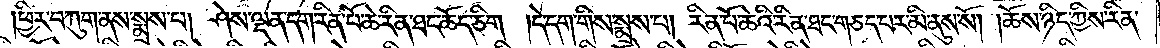ཕྱིར་བཀུག་ནས་སྨྲས་པ། ཤེས་ལྡན་དག་རིན་པོ་ཆེ་རིན་ཐང་ཆོད་ཅིག །དེ་དག་གིས་སྨྲས་པ། རིན་པོ་ཆེའི་རིན་ཐང་གཅད་པར་མི་ནུས་སོ། །ཆོས་ཉིད་ཀྱིས་རིན་
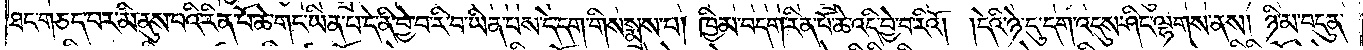ཐང་གཅད་པར་མི་ནུས་པའི་རིན་པོ་ཆེ་གང་ཡིན་པ་དེ་ནི་བྱེ་བ་རི་བ་ཡིན་པས་དེ་དག་གིས་སྨྲས་པ། ཁྱིམ་བདག་རིན་པོ་ཆེ་འདི་བྱེ་བ་རིའོ། །དེའི་ཉེ་དུ་དག་འདུས་ཤིང་ལྷགས་ནས། ཉི་མ་བདུན་
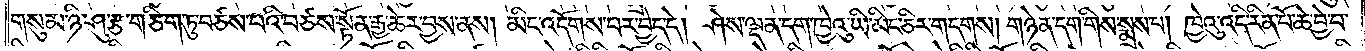གསུམ་ཉི་ཤུ་རྩ་གཅིག་ཏུ་བཙས་པའི་བཙས་སྟོན་རྒྱ་ཆེར་བྱས་ནས། མིང་འདོགས་པར་བྱེད་དེ། ཤེས་ལྡན་དག་ཁྱེའུ་ཡི་མིང་ཅིར་གདགས། གཉེན་དག་གིས་སྨྲས་པ། ཁྱེའུ་འདི་རིན་པོ་ཆེ་བྱེ་བ་
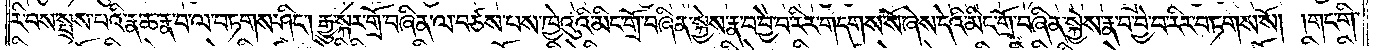རི་བས་སྤྲས་པའི་རྣ་ཆ་རྣ་བ་ལ་བཏགས་ཤིང༌། རྒྱུ་སྐར་གྲོ་བཞིན་ལ་བཙས་པས་ཁྱེའུའི་མིང་གྲོ་བཞིན་སྐྱེས་རྣ་བ་བྱེ་བ་རིར་གདགས་སོ་ཞེས་དེའི་མིང་གྲོ་བཞིན་སྐྱེས་རྣ་བ་བྱེ་བ་རིར་བཏགས་སོ། །གང་གི་
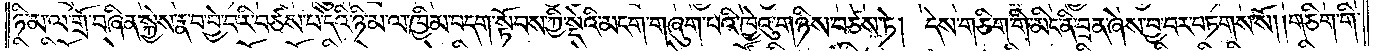ཉི་མ་ལ་གྲོ་བཞིན་སྐྱེས་རྣ་བ་བྱེ་བ་རི་བཙས་པ་དེའི་ཉི་མ་ལ་ཁྱིམ་བདག་སྟོབས་ཀྱི་སྡེའི་མངག་གཞུག་པའི་ཁྱེའུ་གཉིས་བཙས་ཏེ། དེས་གཅིག་གི་མིང་ནི་བྲན་ཞེས་བྱ་བར་བཏགས་སོ། །གཅིག་གི་
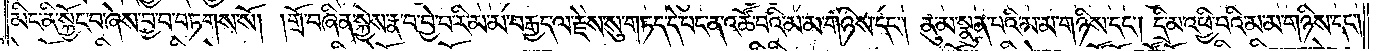མིང་ནི་སྐྱོང་བ་ཞེས་བྱ་བ་བཏགས་སོ། །གྲོ་བཞིན་སྐྱེས་རྣ་བ་བྱེ་བ་རིམ་མ་བརྒྱད་ལ་རྗེས་སུ་གཏད་དེ་པང་ན་འཚོ་བའི་མ་མ་གཉིས་དང༌། ནུ་མ་སྣུན་པའི་མ་མ་གཉིས་དང༌། དི་མ་འཕྱི་བའི་མ་མ་གཉིས་དང༌།
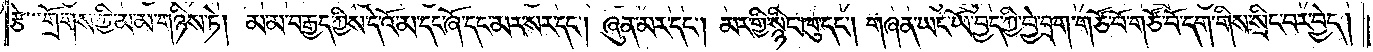རྩེ་གྲོགས་ཀྱི་མ་མ་གཉིས་ཏེ། མ་མ་བརྒྱད་ཀྱིས་དེ་འོ་མ་དང་ཞོ་དང་མར་སར་དང༌། ཞུན་མར་དང༌། མར་གྱི་སྙིང་ཁུ་དང༌། གཞན་ཡང་ཡོ་བྱད་ཀྱི་བྱེ་བྲག་གཙོ་བོ་གཙོ་བོ་དག་གིས་སྲིང་བར་བྱེད།
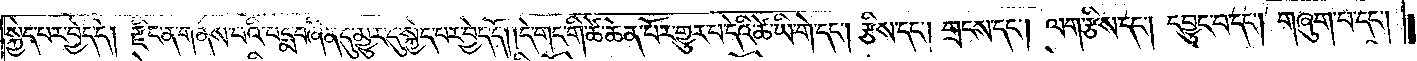སྐྱེད་པར་བྱེད་དེ། རྫིང་ན་གནས་པའི་པདྨ་བཞིན་དུ་མྱུར་དུ་སྐྱེད་པར་བྱེད་དོ། །དེ་གང་གི་ཚེ་ཆེན་པོར་གྱུར་བ་དེའི་ཚེ་ཡི་གེ་དང༌། རྩིས་དང༌། གྲངས་དང༌། ལག་རྩིས་དང༌། དབྱུང་བ་དང༌། གཞུག་པ་དང༌།
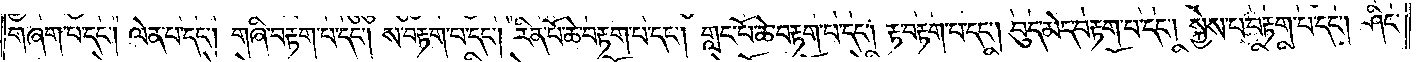གཞག་པ་དང༌། ལེན་པ་དང༌། གཞི་བརྟག་པ་དང༌། ས་བརྟག་པ་དང༌། རིན་པོ་ཆེ་བརྟག་པ་དང༌། གླང་པོ་ཆེ་བརྟག་པ་དང༌། རྟ་བརྟག་པ་དང༌། བུད་མེད་བརྟག་པ་དང༌། སྐྱེས་པ་བརྟག་པ་དང༌། ཤིང་
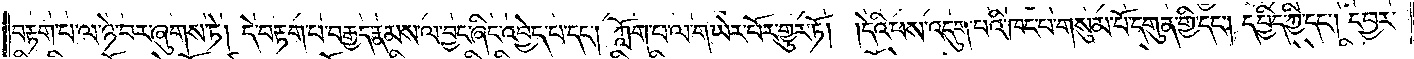བརྟག་པ་ལ་ཉེ་བར་ཞུགས་ཏེ། དེ་བརྟག་པ་བརྒྱད་རྣམས་ལ་བྱང་ཞིང་འབྱེད་པ་དང༌། ཀློག་པ་ལ་གཡེར་པོར་གྱུར་ཏོ། །དེའི་ཕས་འདུག་པའི་ཁང་བ་གསུམ་པོ་དགུན་གྱི་དང༌། དཔྱིད་ཀྱི་དང༌། དབྱར་
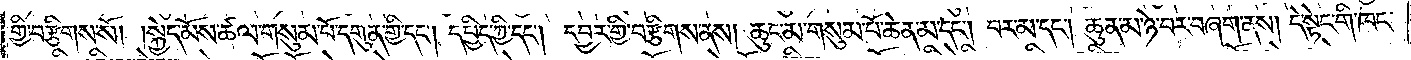གྱི་བརྩིགས་སོ། །སྐྱེད་མོས་ཚལ་གསུམ་པོ་དགུན་གྱི་དང༌། དཔྱིད་ཀྱི་དང༌། དབྱར་གྱི་བརྩིགས་ནས། ཆུང་མ་གསུམ་པོ་ཆེན་མ་དང༌། བར་མ་དང༌། ཆུན་མ་ཉེ་བར་བཞག་ནས། དེ་སྟེང་གི་ཁང་
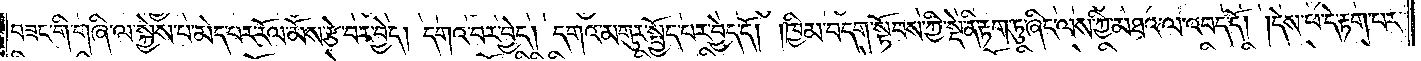བཟང་གི་གཞི་ལ་སྐྱེས་པ་མེད་པར་རོལ་མོས་རྩེ་བར་བྱེད། དགའ་བར་བྱེད། དགའ་མགུར་སྤྱོད་པར་བྱེད་དོ། །ཁྱིམ་བདག་སྟོབས་ཀྱི་སྡེ་ནི་རྟག་ཏུ་ཞིང་ལས་ཀྱི་མཐའ་ལ་འབད་དོ། །དེས་ཕ་དེ་རྟག་པར་
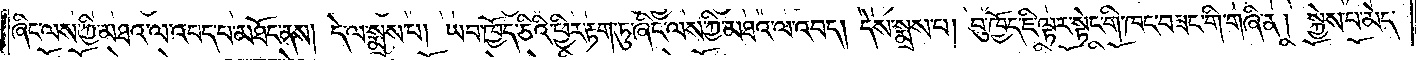ཞིང་ལས་ཀྱི་མཐའ་ལ་འབད་པ་མཐོང་ནས། དེ་ལ་སྨྲས་པ། ཡབ་ཁྱོད་ཅིའི་ཕྱིར་རྟག་ཏུ་ཞིང་ལས་ཀྱི་མཐའ་ལ་འབད། དེས་སྨྲས་པ། བུ་ཁྱོད་ཇི་ལྟར་སྟེང་གི་ཁང་བཟང་གི་གཞི་ན། སྐྱེས་པ་མེད་
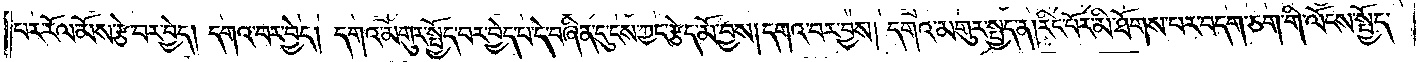པར་རོལ་མོས་རྩེ་བར་བྱེད། དགའ་བར་བྱེད། དགའ་མགུར་སྤྱོད་བར་བྱེད་པ་དེ་བཞིན་དུ་ངས་ཀྱང་རྩེད་མོ་བྱས། དགའ་བར་བྱས། དགའ་མགུར་སྤྱད་ན། རིང་པོར་མི་ཐོགས་པར་བདག་ཅག་གི་ལོངས་སྤྱོད་
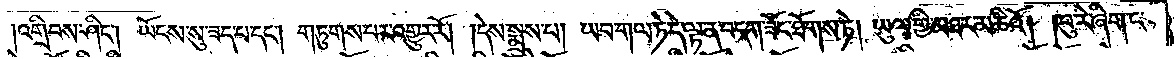འགྲིབས་ཤིང༌། ཡོངས་སུ་ཟད་པ་དང༌། གཏུགས་པར་འགྱུར་རོ། །དེས་སྨྲས་པ། ཡབ་གལ་ཏེ་དེ་ལྟ་ན་བདག་ཟོང་ཐོགས་ཏེ། ཡུལ་གྱི་མཐར་མཆིའོ། །བུ་རེ་ཞིག་ང་
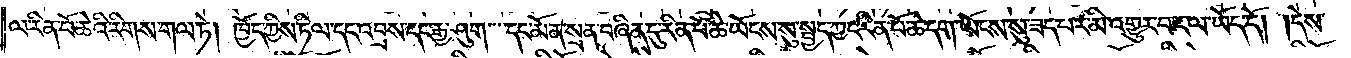ལ་རིན་པོ་ཆེའི་རིགས་གལ་ཏེ། ཁྱོད་ཀྱིས་ཏིལ་དང་འབྲས་དང་རྒྱ་ཤུག་དང་མོན་སྲན་བཞིན་དུ་རིན་པོ་ཆེ་ཡོངས་སུ་སྤྱད་ཀྱང་རིན་པོ་ཆེ་དག་ཡོངས་སུ་ཟད་པར་མི་འགྱུར་བ་ང་ལ་ཡོད་དོ། །དེས་
